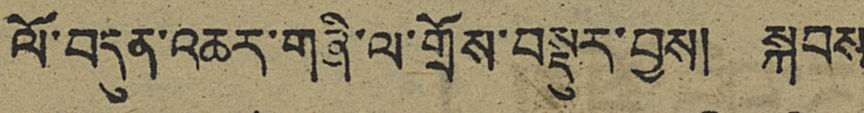ལོ་བདུན་འཆར་གཞི་ལ་གྲོས་བསྡུར་བྱས། སྐབས
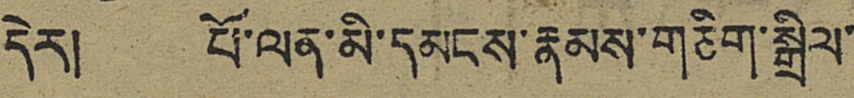དེར། པོ་ལན་མི་དམངས་རྣམས་གཅིག་སྒྲིལ་
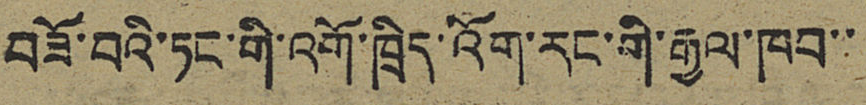བཟོ་བའི་ཏང་གི་འགོ་ཁྲིད་འོག་རང་གི་རྒྱལ་ཁབ་་
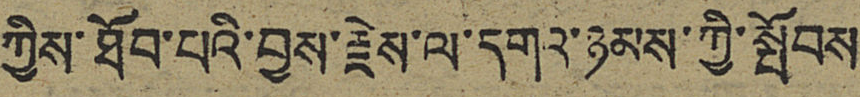ཀྱིས་ཐོབ་པའི་བྱས་རྗེས་ལ་དགའ་ཉམས་ཀྱི་སྤོབས་
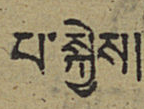པ་སྐྱེས།
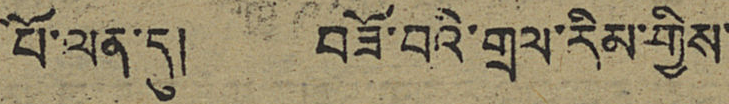པོ་ལན་དུ། བཟོ་བའི་གྲལ་རིམ་གྱིས་
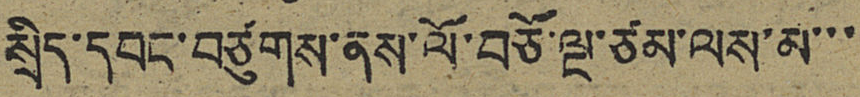སྲིད་དབང་བཙུགས་ནས་ལོ་བཅོ་ལྔ་ཙམ་ལས་མ་་་
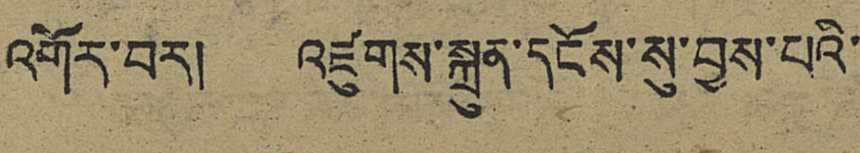འགོར་བར། འཛུགས་སྐྲུན་དངོས་སུ་བྱས་པའི་
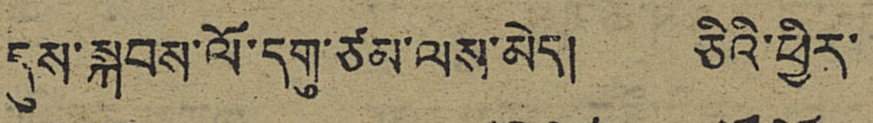དུས་སྐབས་ལོ་དགུ་ཙམ་ལས་མེད། ཅིའི་ཕྱིར་
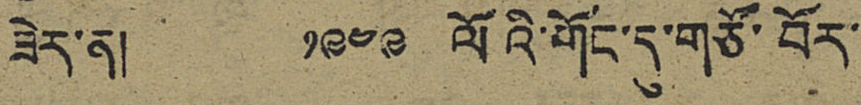ཟེར་ན། ༡༩༤༩ ལོའི་གོང་དུ་གཙོ་བོར་
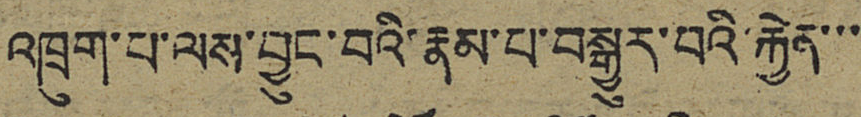འཁྲུག་པ་ལས་བྱུང་བའི་རྣམ་པ་བསྒྱུར་བའི་རྐྱེན་་་
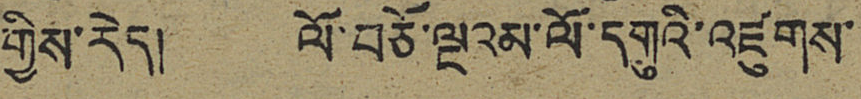གྱིས་རེད། ལོ་བཅོ་ལྔའམ་ལོ་དགུའི་འཛུགས་
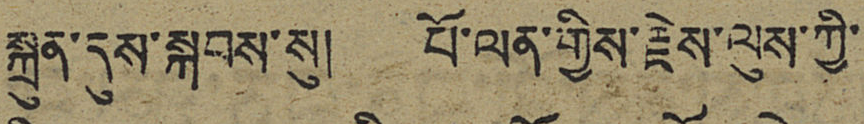སྐྲུན་དུས་སྐབས་སུ། པོ་ལན་གྱིས་རྗེས་ལུས་ཀྱི་
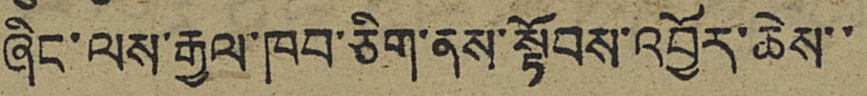ཞིང་ལས་རྒྱལ་ཁབ་ཅིག་ནས་སྟོབས་འབྱོར་ཆེས་་
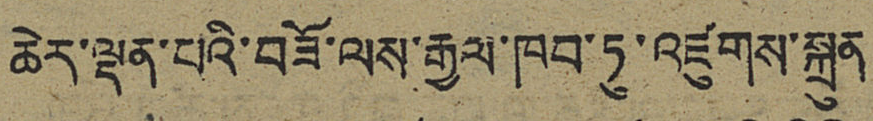ཆེར་ལྡན་པའི་བཟོ་ལས་རྒྱལ་ཁབ་ཏུ་འཛུགས་སྐྲུན
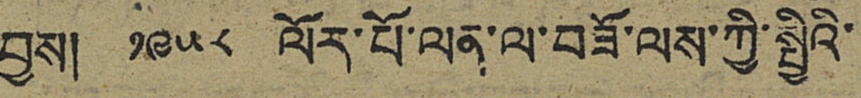བྱས། ༡༩༥༨ ལོར་པོ་ལན་ལ་བཟོ་ལས་ཀྱི་སྤྱིའི་
